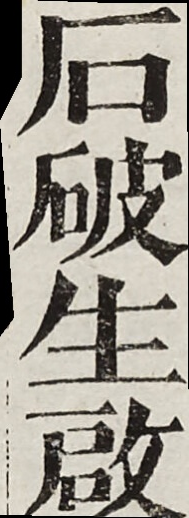石破生啟
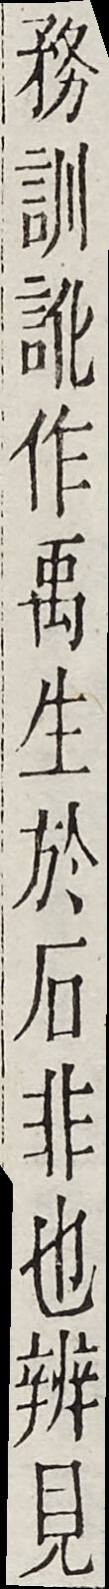務訓訛作禹生於石非也辨見
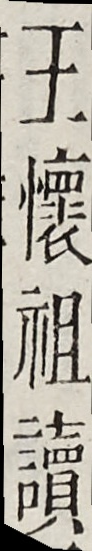王懷祖讀
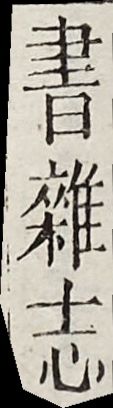書雜志
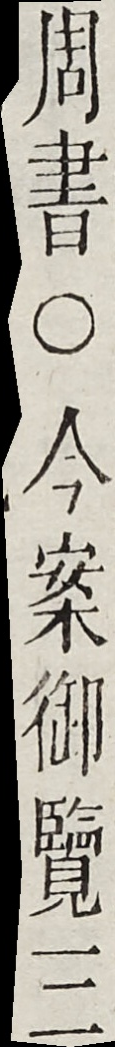周書○今案御覽三
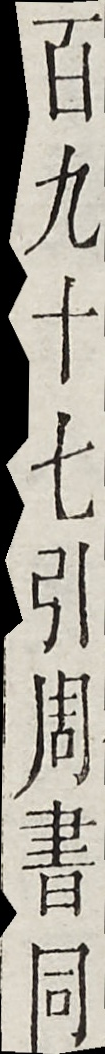百九十七引周書同
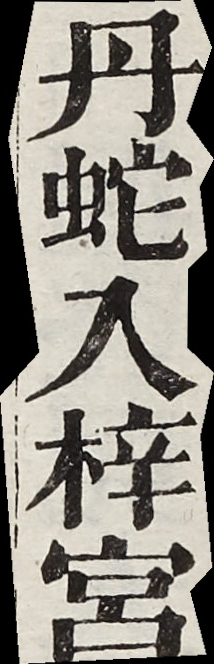丹蛇入梓宮
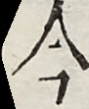今
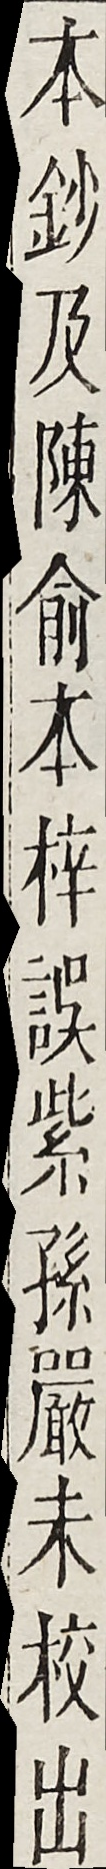本鈔及陳俞本梓誤紫孫嚴未校出
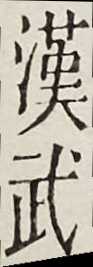漢武
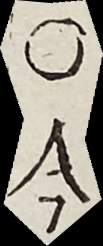○今
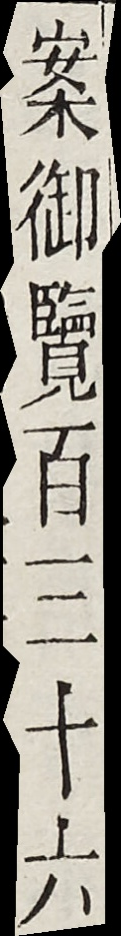案御覽百三十六
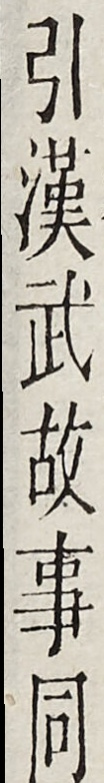引漢武故事同
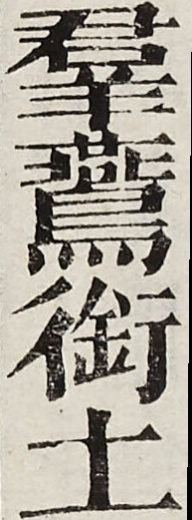羣鷰銜土
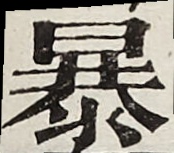暴
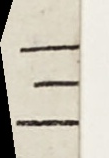三
